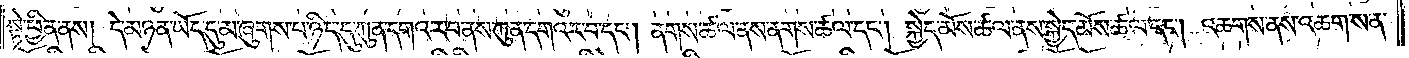སྟེ་ཕྱིན་ནས། དེ་མཉན་ཡོད་དུ་མ་ཞུགས་པ་ཉིད་དུ་ཀུན་དགའ་ར་བ་ནས་ཀུན་དགའ་ར་བ་དང༌། ནགས་ཚལ་ནས་ནགས་ཚལ་དང༌། སྐྱེད་མོས་ཚལ་ནས་སྐྱེད་མོས་ཚལ་དང༌། འཆགས་ནས་འཆགས་ན་
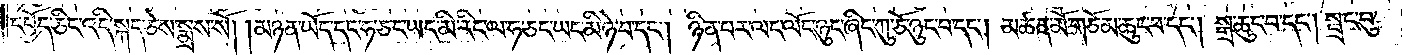དཔྱོད་ཅིང་འདི་སྐད་ཅེས་སྨྲས་སོ། །མཉན་ཡོད་དང་ཧ་ཅང་ཡང་མི་རིང་ལ་ཧ་ཅང་ཡང་མི་ཉེ་བ་དང༌། ཉིན་པར་ལང་ལོང་ཉུང་ཞིང་ཀུ་ཅོ་ཉུང་བ་དང༌། མཚན་མོ་གཅོམ་ཆུང་བ་དང༌། སྒྲ་ཆུང་བ་དང༌། སྦྲང་བུ་
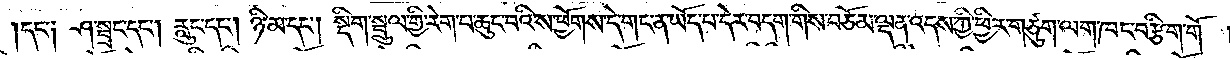དང་༑ ཤ་སྦྲང་དང༌། རླུང་དང༌། ཉི་མ་དང༌། སྡིག་སྦྲུལ་གྱི་རེག་པ་ཆུང་བའི་ས་ཕྱོགས་དེ་གང་ན་ཡོད་པ་དེར་བདག་གིས་བཅོམ་ལྡན་འདས་ཀྱི་ཕྱིར་གཙུག་ལག་ཁང་བརྩིག་གོ །
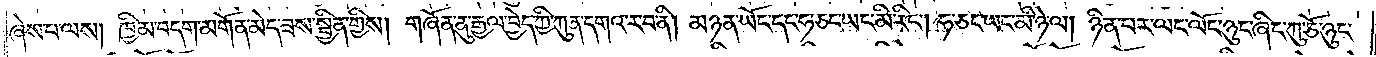ཞེས་པ་ལས། ཁྱིམ་བདག་མགོན་མེད་ཟས་སྦྱིན་གྱིས། གཞོན་ནུ་རྒྱལ་བྱེད་ཀྱི་ཀུན་དགའ་ར་བ་ནི། མཉན་ཡོད་དང་ཧ་ཅང་ཡང་མི་རིང༌། ཧ་ཅང་ཡང་མི་ཉེ་ལ། ཉིན་པར་ལང་ལོང་ཉུང་ཞིང་ཀུ་ཅོ་ཉུང་
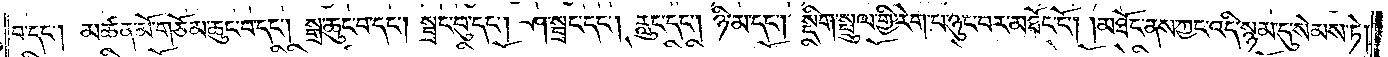བ་དང༌། མཚན་མོ་གཅོམ་ཆུང་བ་དང༌། སྒྲ་ཆུང་བ་དང༌། སྦྲང་བུ་དང༌། ཤ་སྦྲང་དང༌། རླུང་དང༌། ཉི་མ་དང༌། སྡིག་སྦྲུལ་གྱི་རེག་པ་ཉུང་བར་མཐོང་ངོ༌། །མཐོང་ནས་ཀྱང་འདི་སྙམ་དུ་སེམས་ཏེ།
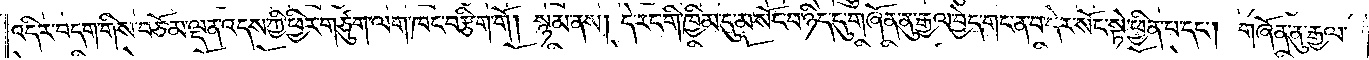འདིར་བདག་གིས་བཅོམ་ལྡན་འདས་ཀྱི་ཕྱིར་གཙུག་ལག་ཁང་བརྩིག་གོ། སྙམ་ནས། དེ་རང་གི་ཁྱིམ་དུ་མ་སོང་བ་ཉིད་དུ་གཞོན་ནུ་རྒྱལ་བྱེད་གང་ན་བ་དེར་སོང་སྟེ་ཕྱིན་པ་དང༌། གཞོན་ནུ་རྒྱལ་
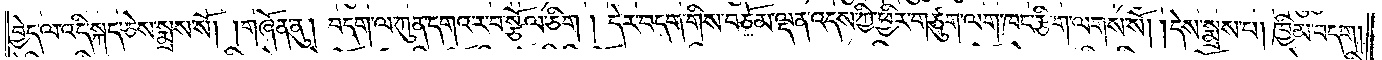བྱེད་ལ་འདི་སྐད་ཅེས་སྨྲས་སོ། །གཞོན་ནུ། བདག་ལ་ཀུན་དགའ་ར་བ་སྩོལ་ཅིག། དེར་བདག་གིས་བཅོམ་ལྡན་འདས་ཀྱི་ཕྱིར་གཙུག་ལག་ཁང་རྩིག་ལགས་སོ། །དེས་སྨྲས་པ། ཁྱིམ་བདག།
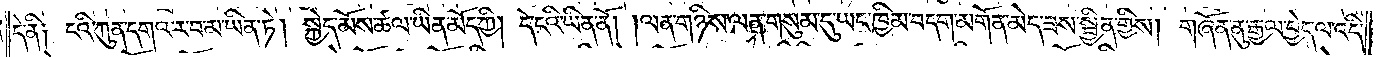དེ་ནི༑ ངའི་ཀུན་དགའ་ར་བ་མ་ཡིན་ཏེ། སྐྱེད་མོས་ཚལ་ཡིན་མོད་ཀྱི། དེ་ངའི་ཡིན་ནོ། །ལན་གཉིས་ལན་གསུམ་དུ་ཡང་ཁྱིམ་བདག་མགོན་མེད་ཟས་སྦྱིན་གྱིས། གཞོན་ནུ་རྒྱལ་བྱེད་ལ་འདི་
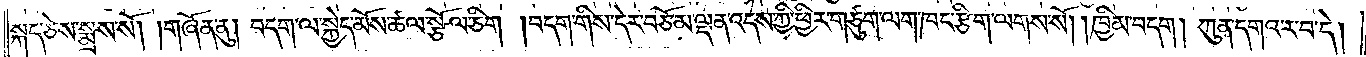སྐད་ཅེས་སྨྲས་སོ། །གཞོན་ནུ། བདག་ལ་སྐྱེད་མོས་ཚལ་སྩོལ་ཅིག །བདག་གིས་དེར་བཅོམ་ལྡན་འདས་ཀྱི་ཕྱིར་གཙུག་ལག་ཁང་རྩིག་ལགས་སོ། །ཁྱིམ་བདག། ཀུན་དགའ་ར་བ་དེ།
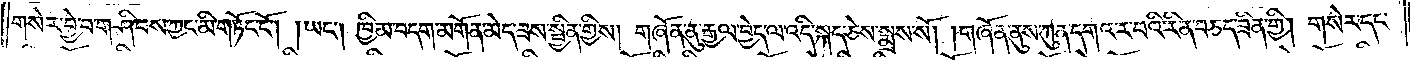གསེར་བྱེ་བ་གཤིབས་ཀྱང་མི་གཏོང་ངོ༌། །ཡང༌། ཁྱིམ་བདག་མགོན་མེད་ཟས་སྦྱིན་གྱིས། གཞོན་ནུ་རྒྱལ་བྱེད་ལ་འདི་སྐད་ཅེས་སྨྲས་སོ། །གཞོན་ནུས་ཀུན་དགའ་ར་བའི་རིན་བཅད་ཟིན་གྱི། གསེར་དང་
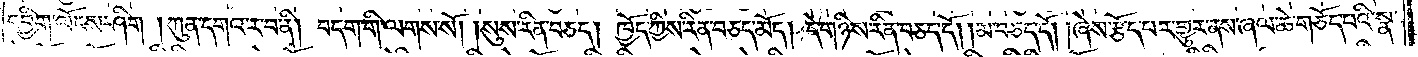དབྱིག་ལོངས་ཤིག །ཀུན་དགའ་ར་བ་ནི། བདག་གི་ལགས་སོ། །སུས་རིན་བཅད། ཁྱོད་ཀྱིས་རིན་བཅད་མོད། དེ་གཉིས་རིན་བཅད་དོ། །མ་བཅད་དོ། ཞེས་རྩོད་པར་གྱུར་ནས་ཞལ་ཆེ་གཅོད་པའི་སྣ་
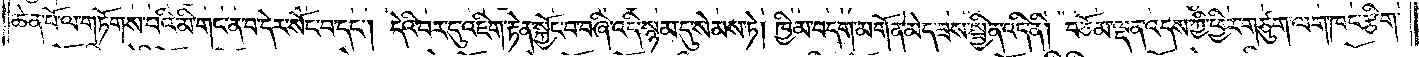ཆེན་པོ་ལ་གཏོགས་པའི་མི་གང་ན་བ་དེར་སོང་བ་དང༌། དེའི་བར་དུ་འཇིག་རྟེན་སྐྱོང་བ་བཞི་འདི་སྙམ་དུ་སེམས་ཏེ། ཁྱིམ་བདག་མགོན་མེད་ཟས་སྦྱིན་འདི་ནི། བཅོམ་ལྡན་འདས་ཀྱི་ཕྱིར་གཙུག་ལག་ཁང་རྩིག་
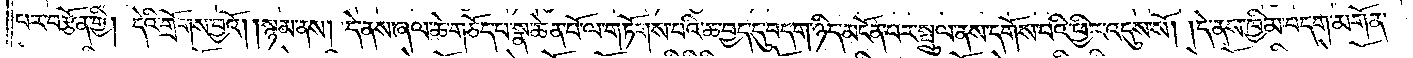པར་བརྩོན་གྱི། དེའི་གྲོགས་བྱའོ། །སྙམ་ནས། དེ་ནས་ཞལ་ཆེ་གཅོད་པ་སྣ་ཆེན་པོ་ལ་གཏོགས་པའི་ཆ་བྱད་དུ་བདག་ཉིད་མངོན་པར་སྦྲུལ་ནས་དགོས་པའི་ཕྱིར་འདུས་སོ། །དེ་ནས་ཁྱིམ་བདག་མགོན་
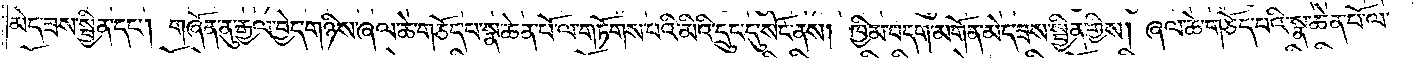མེད་ཟས་སྦྱིན་དང༌། གཞོན་ནུ་རྒྱལ་བྱེད་གཉིས་ཞལ་ཆེ་གཅོད་པ་སྣ་ཆེན་པོ་ལ་གཏོགས་པའི་མིའི་དྲུང་དུ་སོང་ནས། ཁྱིམ་བདག་མགོན་མེད་ཟས་སྦྱིན་གྱིས། ཞལ་ཆེ་གཅོད་པའི་སྣ་ཆེན་པོ་ལ་
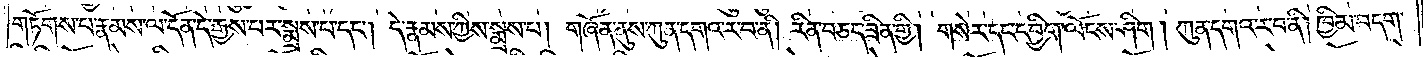གཏོགས་པ་རྣམས་ལ་དོན་དེ་རྒྱས་པར་སྨྲས་པ་དང༌། དེ་རྣམས་ཀྱིས་སྨྲས་པ། གཞོན་ནུས་ཀུན་དགའ་ར་བ་ནི། རིན་བཅད་ཟིན་གྱི། གསེར་དང་དབྱིག་ལོངས་ཤིག །ཀུན་དགའ་ར་བ་ནི། ཁྱིམ་བདག་
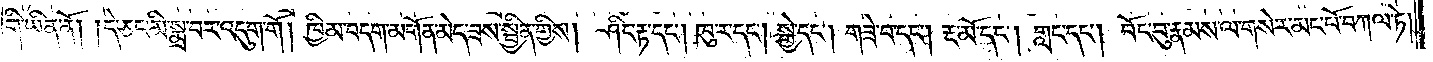གི་ཡིན་ནོ། །དེ་ཅང་མི་སྨྲ་བར་འདུག་གོ། ཁྱིམ་བདག་མགོན་མེད་ཟས་སྦྱིན་གྱིས། ཤིང་རྟ་དང༌། ཁུ་ར་དང༌། སྐྱེ་དང༌། གཟེ་བ་དང༌། རྔ་མོ་དང༌། གླང་དང༌། བོང་བུ་རྣམས་ལ་གསེར་མང་པོ་བཀལ་ཏེ།
